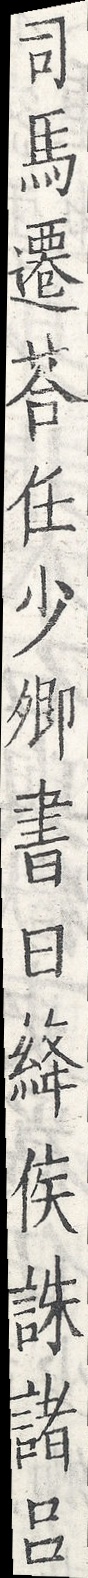司馬遷荅任少卿書曰絳侯誅諸呂
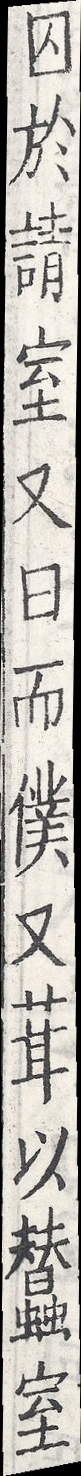囚於請室又曰而僕又茸以蠶室
